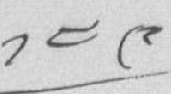༡༤༩
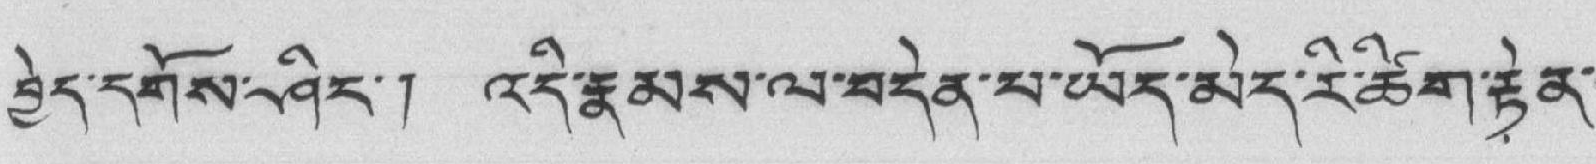བྱེད་དགོས་ཤིང་། འདི་རྣམས་ལ་བདེན་པ་ཡོད་མེད་རི་ཚིག་རྟེན་
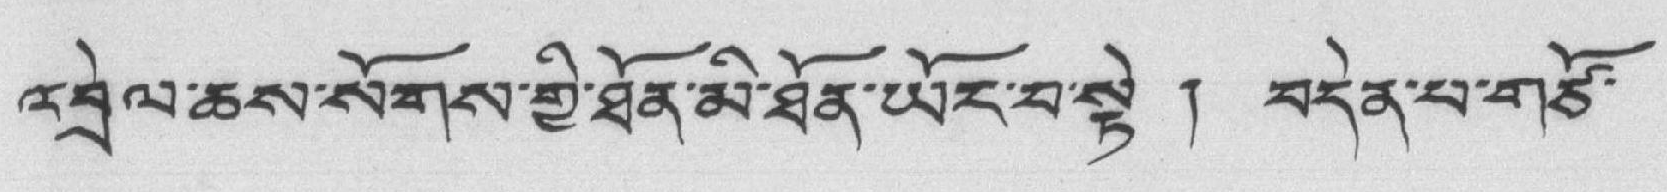འབྲེལ་ཆས་སོགས་གྱི་ཐོན་མི་ཐོན་ཡོང་བ་སྟེ ། བདེན་པ་གཙོ་
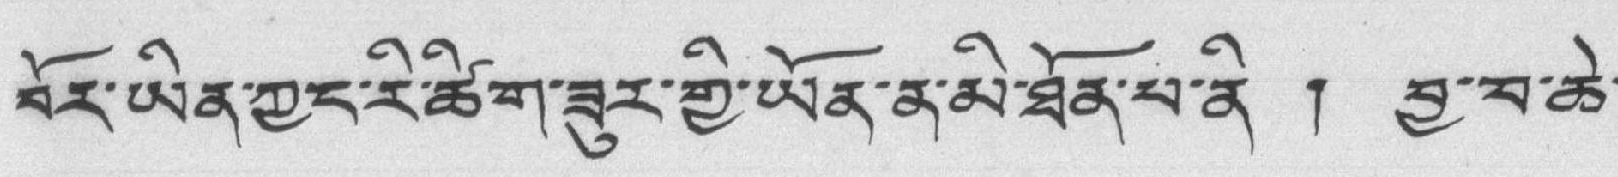བོར་ཡིན་ཀྱང་རི་ཚིག་ཟུར་གྱི་ཡོན་ན་མི་ཐོན་པ་ནི ། བྱ་བ་ཆེ་
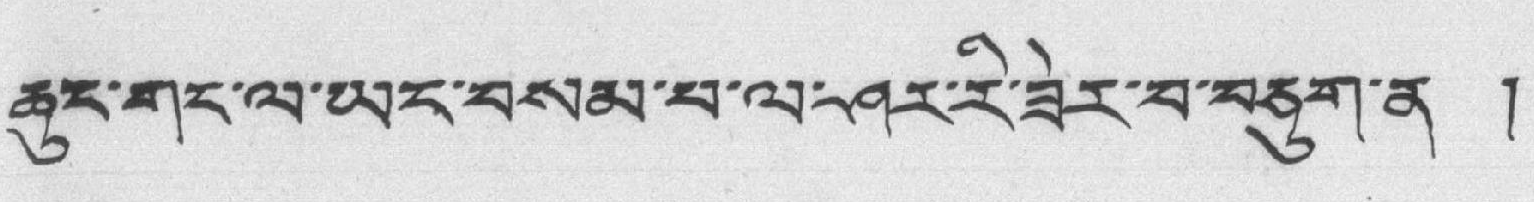ཆུང་གང་ལ་ཡང་བསམ་པ་ལ་ཤར་རི་ཟེར་བ་བཅུག་ན །
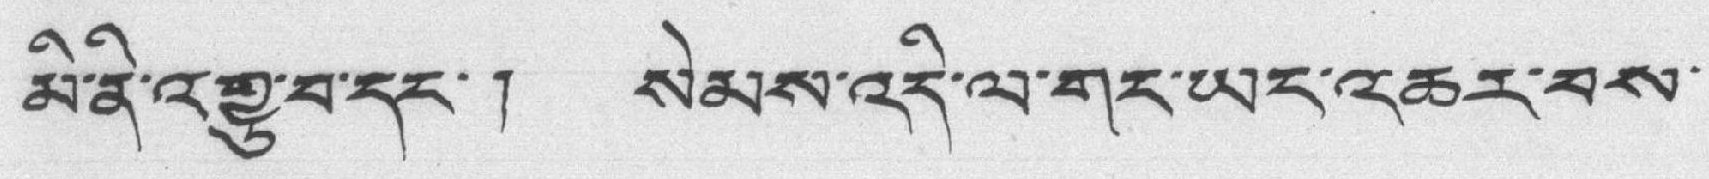མི་ནི་འགྱུ་བ་དང་། སེམས་འདི་ལ་གང་ཡང་འཆར་བས་
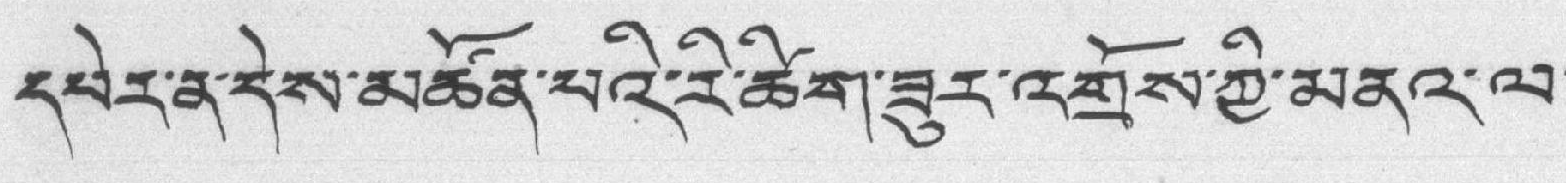དཔེར་ན་དེས་མཚོན་པའི་རི་ཚིག་ཟུར་འགྲོས་ཀྱི་མནའ་ལ་
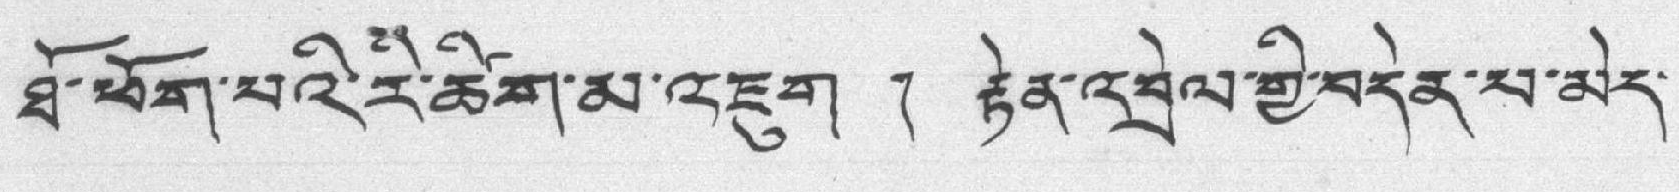ཐོ་ཕོག་པའི་རི་ཚིག་མ་འཇུག ། རྟེན་འབྲེལ་གྱི་བདེན་པ་མེད་
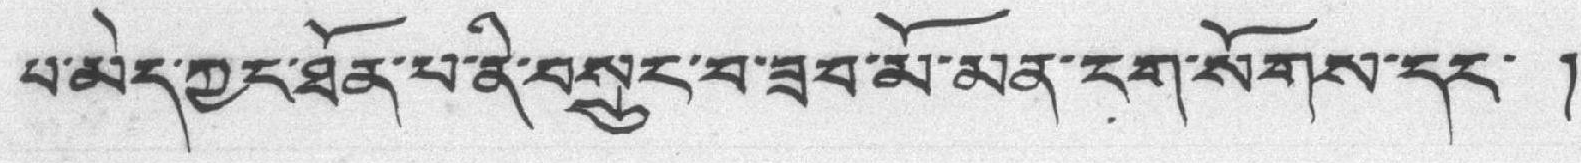པ་མེད་ཀྱང་ཐོན་པ་ནི་བསྲུང་བ་ཟབ་མོ་མན་ངག་སོགས་དང་ །
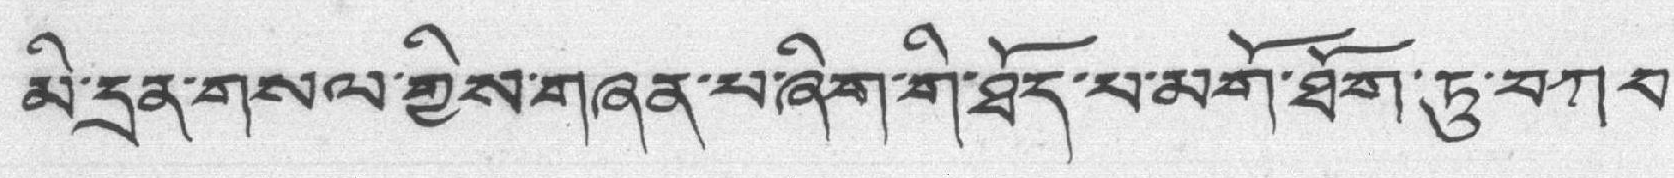མི་དྲན་གསལ་གྱིས་གཞན་པ་ཞིག་གི་ཐོད་པ་མགོ་ཐོག་ཏུ་བཀབ་
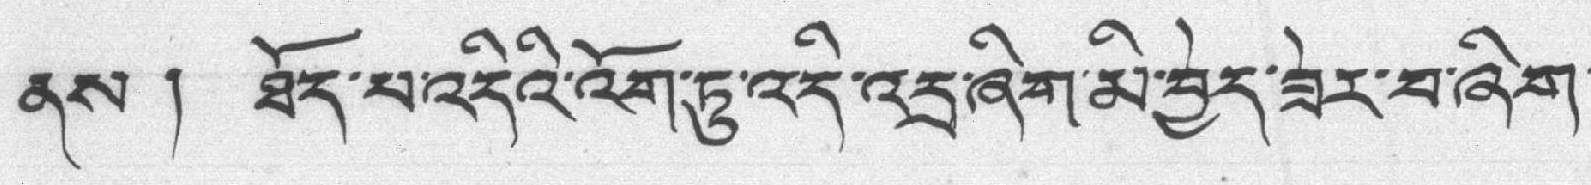ནས ། ཐོད་པ་འདིའི་འོག་ཏུ་འདི་འདྲ་ཞིག་མི་བྱེད་ཟེར་བ་ཞིག་
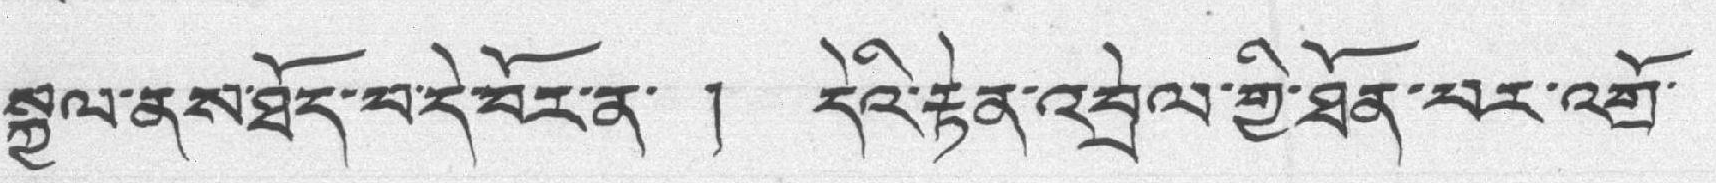སྐྱལ་ནས་ཐོད་པ་དེ་བོར་ན་ ། དེའི་རྟེན་འབྲེལ་གྱི་ཐོན་པར་འགྲོ་
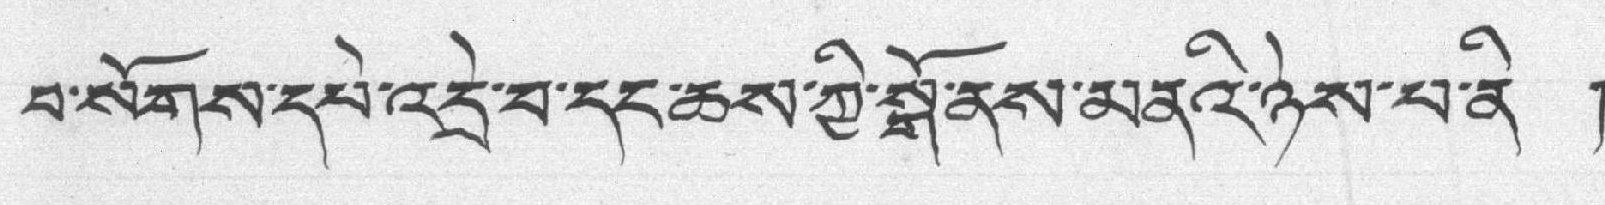པ་སོགས་དཔེ་འདྲེ་བ་དང་ཆས་ཀྱི་སྒོ་ནས་མནའི་ཉེས་པ་ནི །
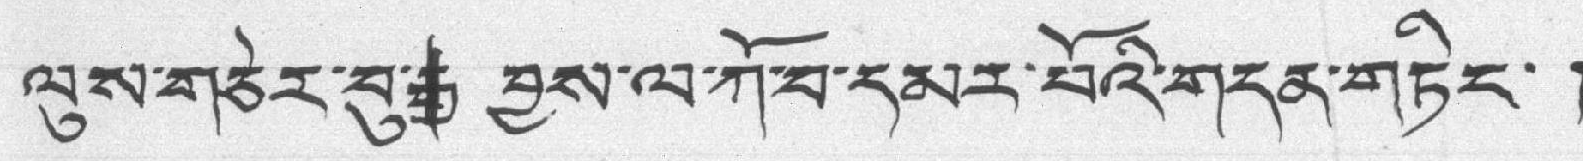ལུས་གཅེར་བུ་རྒྱ བྱས་ལ་ཀོ་བ་དམར་པོའི་གདན་གཏིང་ །
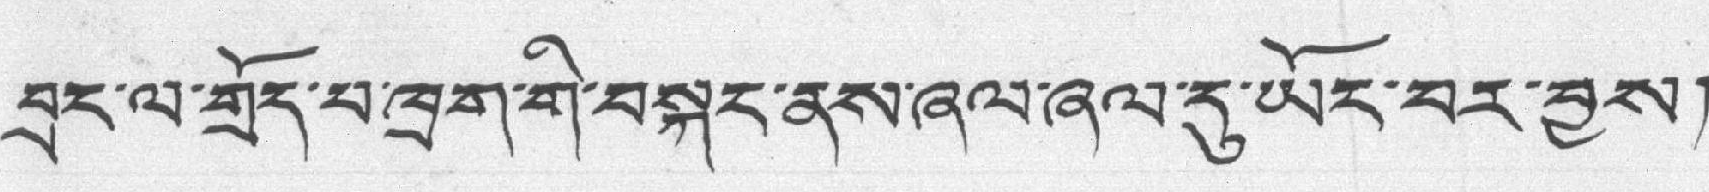བྲང་ལ་གྲོད་པ་ཁྲག་གི་བསྐང་ནས་ཞལ་ཞལ་དུ་ཡོང་བར་བྱས།
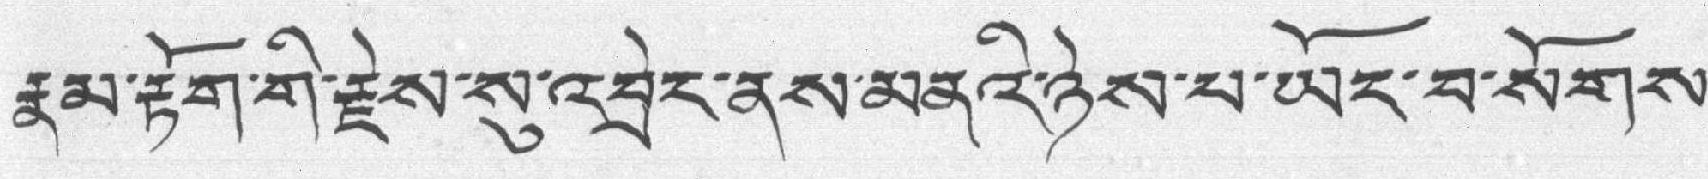རྣམ་རྟོག་གི་རྗེས་ས་འབྲེང་ནས་མནའི་ཉེས་པ་ཡོང་བ་སོགས་
